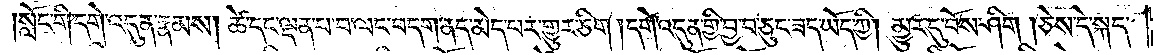།སློང་གི་དགེ་འདུན་རྣམས། ཚེ་དང་ལྡན་པ་བ་ལང་བདག་ནད་མེད་པར་གྱུར་ཅིག །དགེ་འདུན་གྱི་བྱ་བ་ཅུང་ཟད་ཡོད་ཀྱི། མྱུར་དུ་བོས་ཤིག །ཅེས་དེ་སྐད་
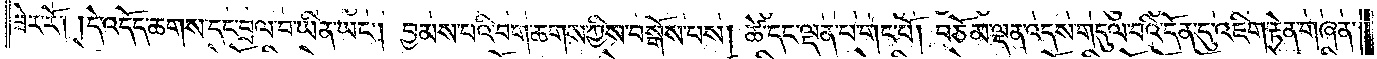ཟེར་རོ། །དེ་འདོད་ཆགས་དང་བྲལ་བ་ཡིན་ཡང༌། བྱམས་པའི་བག་ཆགས་ཀྱིས་བསྒོས་པས། ཚེ་དང་ལྡན་པ་གང་པོ། བཅོམ་ལྡན་འདས་གདུལ་བའི་དོན་དུ་འཇིག་རྟེན་གཞན་
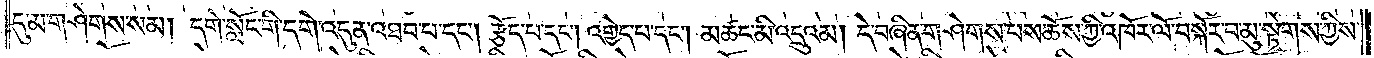དུ་མ་གཤེགས་སམ། དགེ་སློང་གི་དགེ་འདུན་འཐབ་པ་དང༌། རྩོད་པ་དང༌། འགྱེད་པ་དང༌། མཚང་མི་འདྲུའམ། དེ་བཞིན་གཤེགས་པས་ཆོས་ཀྱི་འཁོར་ལོ་བསྐོར་བ་མུ་སྟེགས་ཀྱིས་
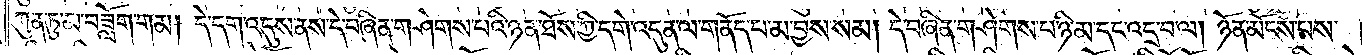ཀུན་ཏུ་མ་བཟློག་གམ། དེ་དག་འདུས་ནས་དེ་བཞིན་གཤེགས་པའི་ཉན་ཐོས་ཀྱི་དགེ་འདུན་ལ་གནོད་པ་མ་བྱས་སམ། དེ་བཞིན་གཤེགས་པ་ཉི་མ་དང་འདྲ་བ་ལ། ཉོན་མོངས་པས་
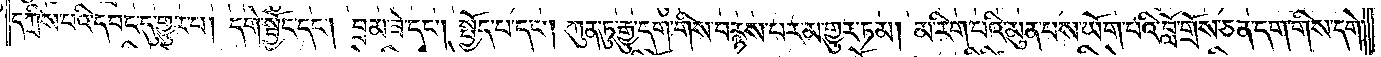དཀྲིས་པའི་དབང་དུ་གྱུར་པ། དགེ་སྦྱོང་དང༌། བྲམ་ཟེ་དང༌། སྤྱོད་པ་དང༌། ཀུན་ཏུ་རྒྱུ་དག་གིས་བརྙས་པར་མ་གྱུར་ཏམ། མ་རིག་པའི་མུན་པས་ཡོག་པའི་བློ་གྲོས་ཅན་དག་གིས་དགེ་
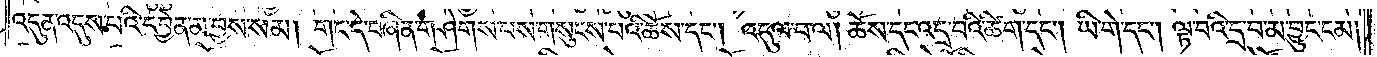འདུན་འདུས་པའི་དབྱེན་མ་བྱས་སམ། གང་དེ་བཞིན་གཤེགས་པས་གསུངས་པའི་ཆོས་དང༌། འདུལ་བ་ལ། ཆོས་དང་འདྲ་བའི་ཚིག་དང༌། ཡི་གེ་དང༌། ལྟ་བའི་དྲ་བ་མ་བྱུང་ངམ།
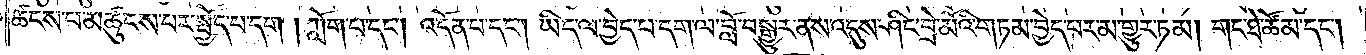ཚངས་པ་མཚུངས་པར་སྤྱོད་པ་དག། ཀློག་པ་དང༌། འདོན་པ་དང༌། ཡིད་ལ་བྱེད་པ་དག་ལ་བློ་བསྒྱུར་ནས་འདུས་ཤིང་བྲེ་མོའི་གཏམ་བྱེད་པར་མ་གྱུར་ཏམ། གང་ཐེ་ཚོམ་དང༌།
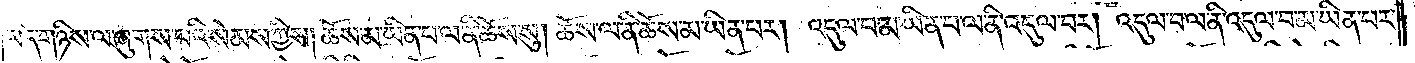ཡིད་གཉིས་ལ་ཞུགས་པའི་སེམས་ཀྱིས། ཆོས་མ་ཡིན་པ་ལ་ནི་ཆོས་སུ། ཆོས་ལ་ནི་ཆོས་མ་ཡིན་པར། འདུལ་བ་མ་ཡིན་པ་ལ་ནི་འདུལ་བར། འདུལ་བ་ལ་ནི་འདུལ་བ་མ་ཡིན་པར་
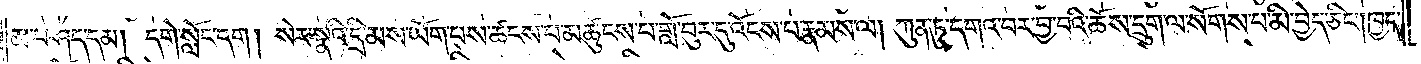མ་བཤད་དམ། དགེ་སློང་དག། སེར་སྣའི་དྲི་མས་ཡོག་པས་ཚངས་པ་མཚུངས་པ་གློ་བུར་དུ་འོངས་པ་རྣམས་ལ། ཀུན་ཏུ་དགའ་བར་བྱ་བའི་ཆོས་དྲུག་ལ་སོགས་པ་མི་བྱེད་ཅིང༌། ཁྱད་
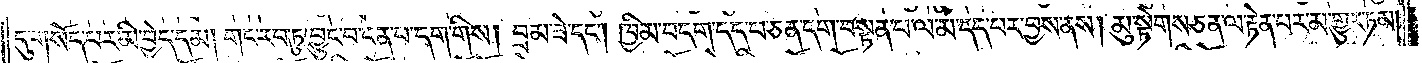དུ་གསོད་པར་མི་བྱེད་དམ། གང་རབ་ཏུ་བྱུང་བ་ངན་པ་དག་གིས། བྲམ་ཟེ་དང༌། ཁྱིམ་བདག་དད་པ་ཅན་དག་བསྟན་པ་ལ་མ་དད་པར་བྱས་ནས། མུ་སྟེགས་ཅན་ལ་རྟེན་པར་མ་གྱུར་ཏམ།
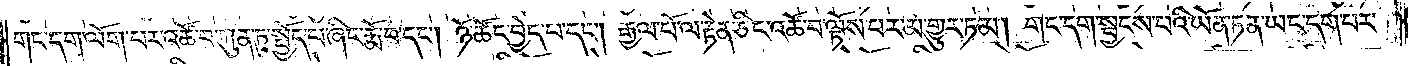གང་དག་ལོག་པར་འཚོ་བ་ཀུན་ཏུ་སྤྱོད་པ་ཞིང་རྨོ་བ་དང༌། ཉོ་ཚོང་བྱེད་པ་དང༌། རྒྱལ་པོ་ལ་རྟེན་ཅིང་འཚོ་བ་ལྟོས་པར་མ་གྱུར་ཏམ། གང་དག་སྦྱངས་པའི་ཡོན་ཏན་ཡང་དག་པར་
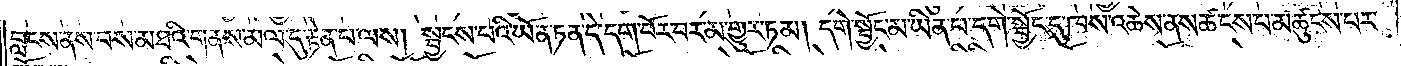བླངས་ནས་བས་མཐའི་གནས་མལ་དུ་རྟེན་པ་ལས། སྦྱངས་པའི་ཡོན་ཏན་དེ་དག་བོར་བར་མ་གྱུར་ཏམ། དགེ་སྦྱོང་མ་ཡིན་པ་དགེ་སྦྱོང་དུ་ཁས་འཆེས་ནས་ཚངས་པ་མཚུངས་པར་
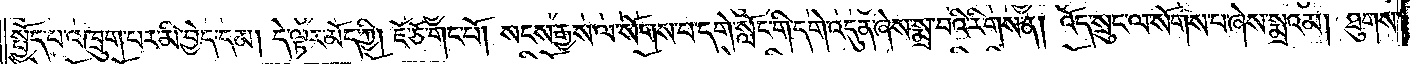སྤྱོད་པ་འཁྲུག་པར་མི་བྱེད་དམ། དེ་ལྟར་མོད་ཀྱི། ཇོ་ཅོ་གང་པོ། སངས་རྒྱས་ལ་སོགས་པ་དགེ་སློང་གི་དགེ་འདུན་ཞེས་སྨྲ་བའི་རིགས་ན། འོད་སྲུང་ལ་སོགས་པ་ཞེས་སྨྲའམ། ཐུགས་
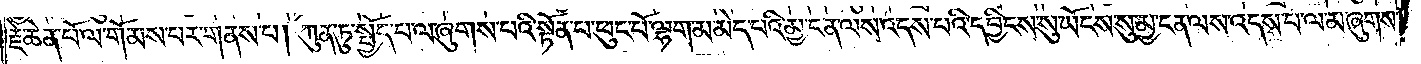རྗེ་ཆེན་པོ་ལ་གོམས་པར་གནས་པ། ཀུན་ཏུ་སྤྱོད་པ་ལ་ཞུགས་པའི་སྟོན་པ་ཕུང་པོ་ལྷག་མ་མེད་པའི་མྱ་ངན་ལས་འདས་པའི་དབྱིངས་སུ་ཡོངས་སུ་མྱ་ངན་ལས་འདས་པ་ལ་མ་ཞུགས་
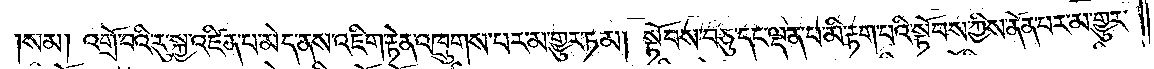།སམ། འགྲོ་བའི་རུ་སྐྱ་འཛིན་བ་མེད་ནས་འཇིག་རྟེན་འཁྲུགས་པར་མ་གྱུར་ཏམ། སྟོབས་བཅུ་དང་ལྡན་པ་མི་རྟག་པའི་སྟོབས་ཀྱིས་ནོན་པར་མ་གྱུར་
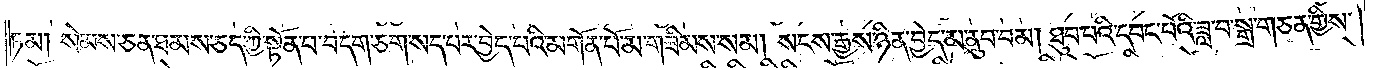ཏམ། སེམས་ཅན་ཐམས་ཅད་ཀྱི་སྟོན་པ་བདག་ཅག་སད་པར་བྱེད་པའི་མགོན་པོ་མ་གཟིམས་སམ། སངས་རྒྱས་ཉིན་བྱེད་མ་ནུབ་བམ། ཐུབ་པའི་དབང་པོའི་ཟླ་བ་སྒྲ་གཅན་གྱིས་
